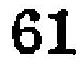61
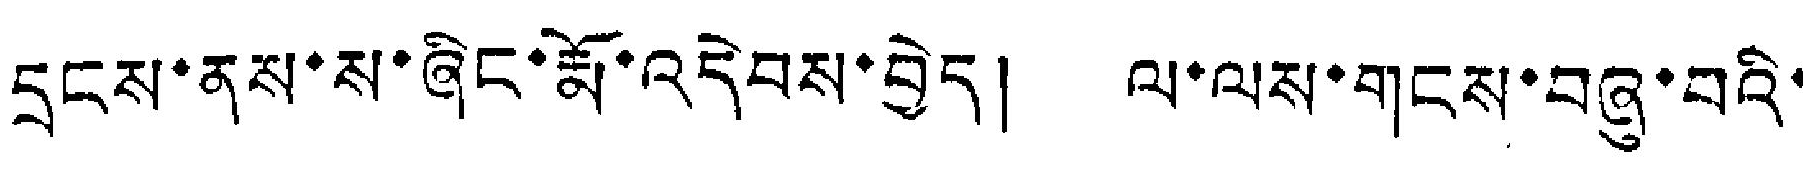དྲངས་ནས་ས་ཞིང་རྨོ་འདེབས་བྱེད། ལ་ལས་གངས་བཞུ་བའི་
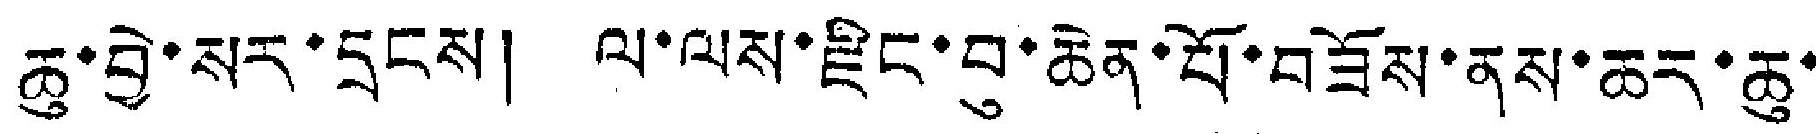ཆུ་བྱེ་སར་དྲངས། ལ་ལས་རྫིང་བུ་ཆེན་པོ་བཟོས་ནས་ཆར་ཆུ་
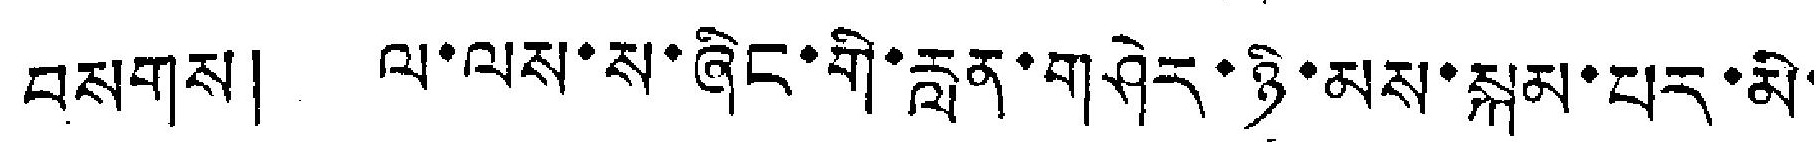བསགས། ལ་ལས་ས་ཞིང་གི་རླན་གཤེར་ཉི་མས་སྐམ་པར་མི་
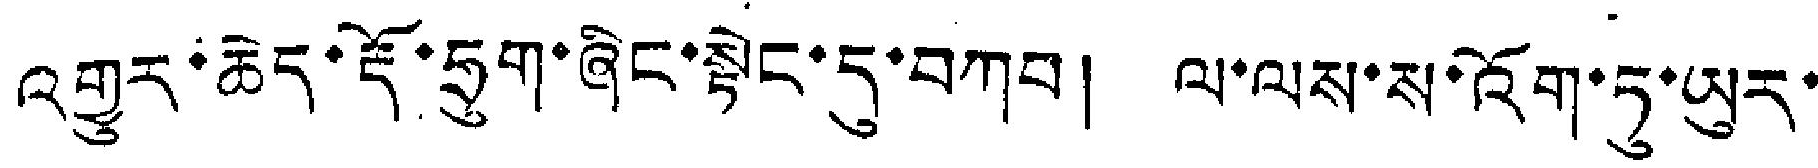འགྱུར་ཆེད་རྡོ་ཧྲུག་ཞིང་སྟེང་དུ་བཀབ། ལ་ལས་ས་འོག་ཏུ་ཡུར་
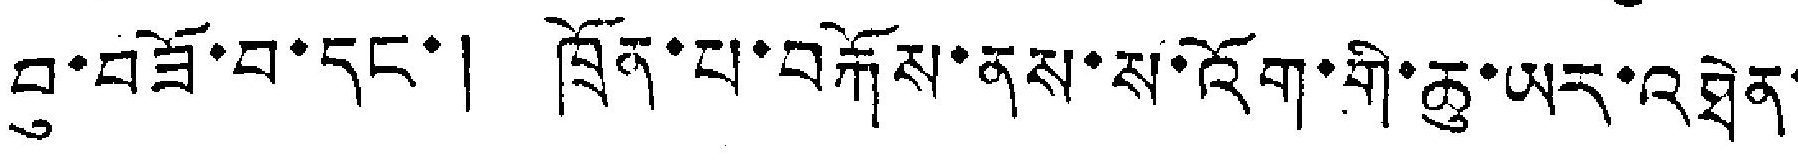བུ་བཟོ་བ་དང་། ཁྲོན་པ་བརྐོས་ནས་ས་འོག་གི་ཆུ་ཡར་འཐེན་
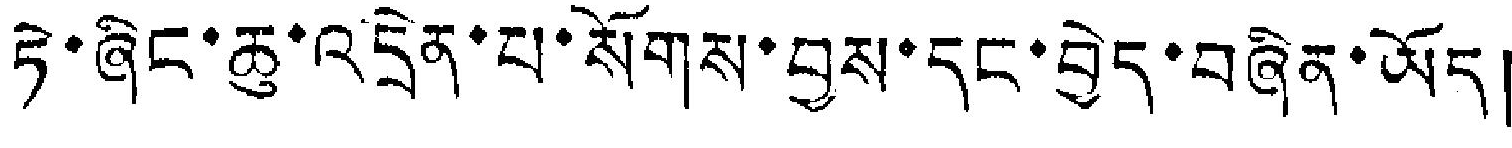ཏེ་ཞིང་ཆུ་འདྲེན་པ་སོགས་བྱས་དང་བྱེད་བཞིན་ཡོད།
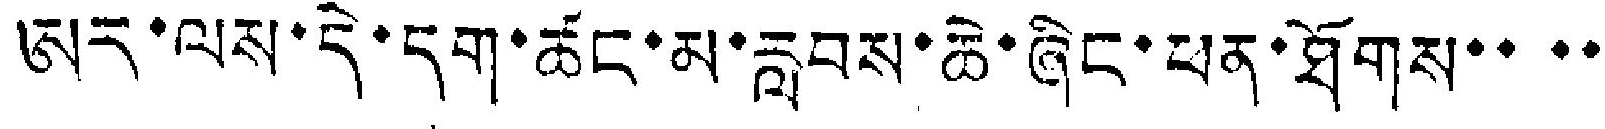ཨར་ལས་དེ་དག་ཚང་མ་རླབས་ཆེ་ཞིང་ཕན་ཐོགས་་་་་
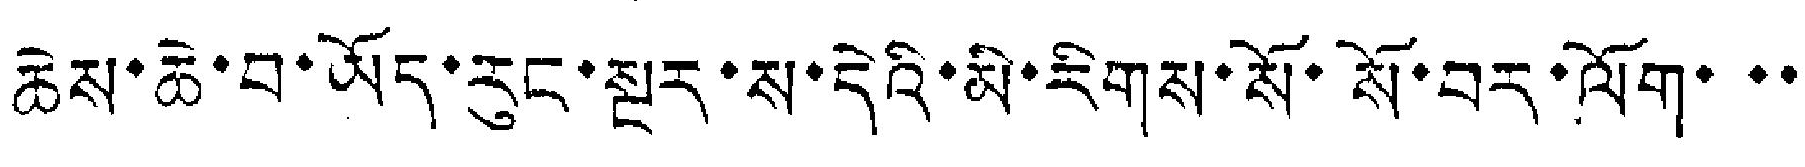ཆེས་ཆེ་བ་ཡོད་རུང་སྔར་ས་དེའི་མི་རིགས་སོ་སོ་བར་ལོག་་་་
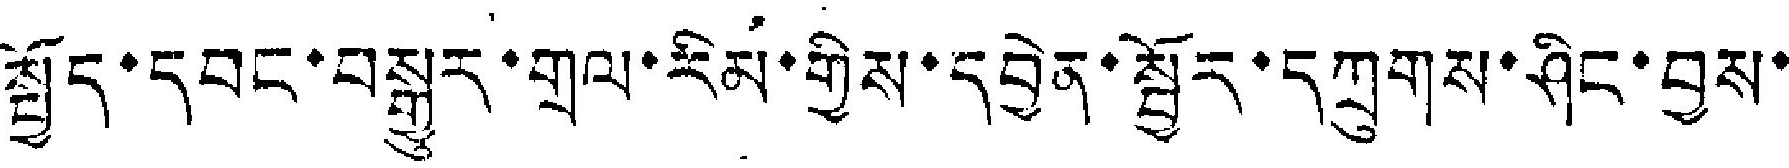སྤྱོད་དབང་བསྒྱུར་གྲལ་རིམ་གྱིས་དབྱེན་སྦྱོར་དཀྲུགས་ཤིང་བྱས་
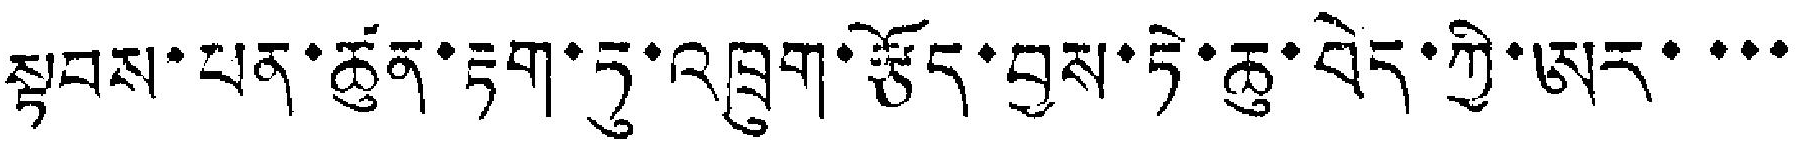སྟབས་ཕན་ཚུན་རྟག་ཏུ་འཁྲུག་རྩོད་བྱས་ཏེ་ཆུ་བྱེད་ཀྱི་ཨར་་་་
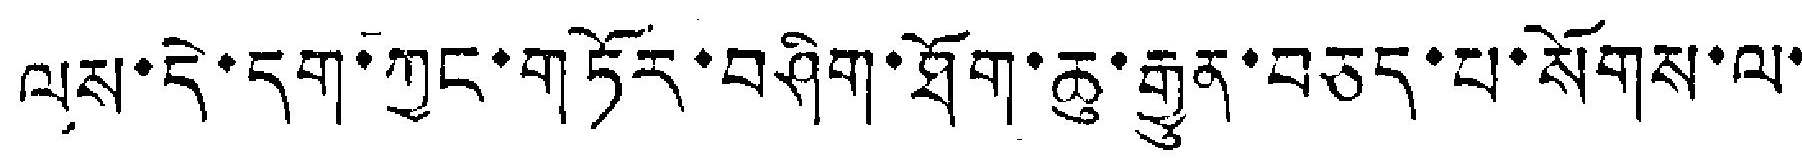ལས་དེ་དག་ཀྱང་གཏོར་བཤིག་ཐོག་ཆུ་རྒྱུན་བཅད་པ་སོགས་ལ་
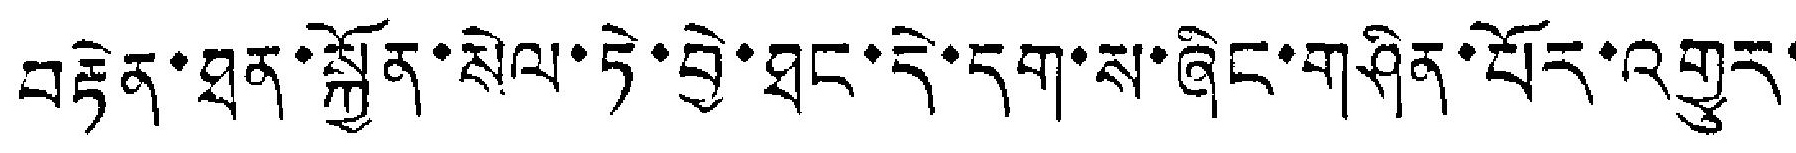བརྟེན་ཐན་སྐྱོན་སེལ་ཏེ་བྱེ་ཐང་དེ་དག་ས་ཞིང་གཤིན་པོར་འགྱུར་
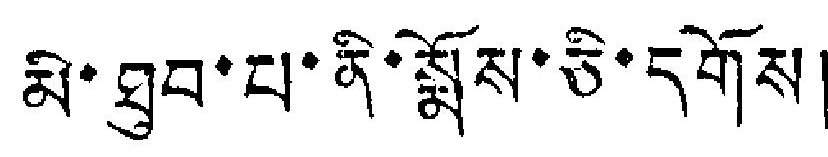མི་ཐུབ་པ་ནི་སྨོས་ཅི་དགོས།
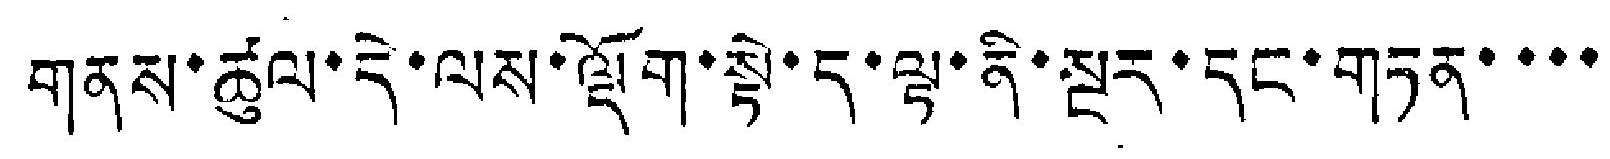གནས་ཚུལ་དེ་ལས་ལྡོག་སྟེ་ད་ལྟ་ནི་སྔར་དང་གཏན་་་་
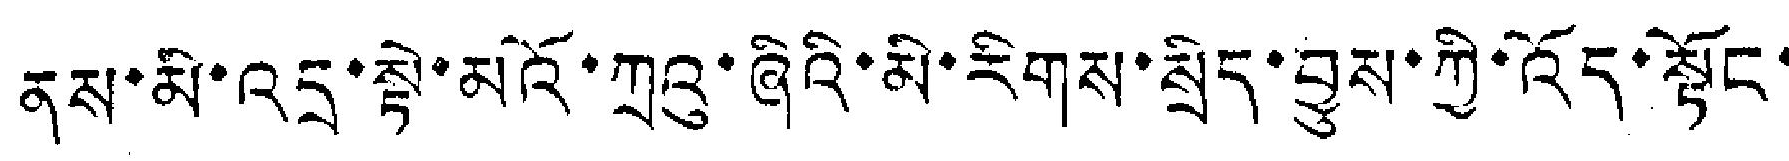ནས་མི་འདྲ་སྟེ་མའོ་ཀྲུའུ་ཞིའི་མི་རིགས་སྲིད་བྱས་ཀྱི་འོད་སྟོང་
